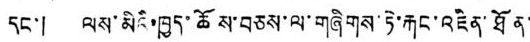དང་། ལས་མིའི་ཁྱད་ཆོས་བཅས་ལ་གཞིགས་ཏེ་རྐང་འཛིན་ཐོན་
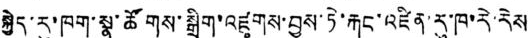སྐྱེད་རུ་ཁག་སྣ་ཚོགས་སྒྲིག་འཛུགས་བྱས་ཏེ་རྐང་འཛིན་རུ་ཁ་རེ་རེས
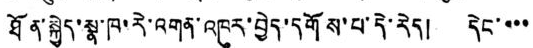ཐོན་སྐྱེད་སྣ་ཁ་རེ་འགན་འཁུར་བྱེད་དགོས་པ་དེ་རེད། དེང་་་་
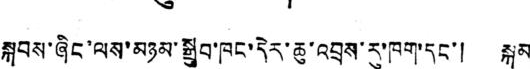སྐབས་ཞིང་ལས་མཉམ་སྒྲུབ་ཁང་དེར་ཆུ་འབྲས་རུ་ཁག་དང་། སྐམ
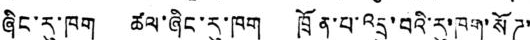ཞིང་རུ་ཁག ཚལ་ཞིང་རུ་ཁག ཁྲོན་པ་འདྲུ་བའི་རུ་ཁག་སོཊ་
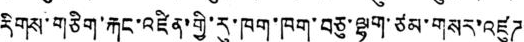རིགས་གཅིག་རྐང་འཛིན་གྱི་རུ་ཁག་ཁག་ཁག་བཅུ་ལྷག་ཙམ་གསར་འཛུཊ་
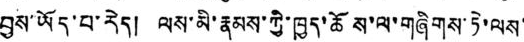བྱས་ཡོད་པ་རེད། ལས་མི་རྣམས་ཀྱི་ཁྱད་ཆོས་ལ་གཞིགས་ཏེ་ལས་
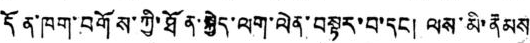དོན་ཁག་བགོས་ཀྱི་ཐོན་སྐྱེད་ལག་ལེན་བསྟར་བ་དང། ལས་མི་རྣམས
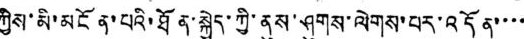ཀྱིས་མི་མངོན་པའི་ཐོན་སྐྱེད་ཀྱི་ནུས་ཤུགས་ལེགས་པར་འདོན་་་་
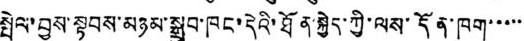སྤེལ་བྱས་སྟབས་མཉམ་སྒྲུབ་ཁང་དེའི་ཐོན་སྐྱེད་ཀྱི་ལས་དོན་ཁག་་་་་་
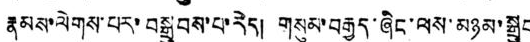རྣམས་ལེགས་པར་བསྒྲུབས་པ་རེད། གསུམ་བརྒྱད་ཞིང་ལས་མཉམ་སྒྲུབ
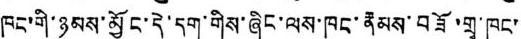ཁང་གི་ཉམས་མྱོང་དེ་དག་གིས་ཞིང་ལས་ཁང་རྣམས་བཟོ་གྲྭ་ཁང་་
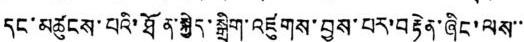དང་མཚུངས་པའི་ཐོན་སྐྱེད་སྒྲིག་འཛུགས་བྱས་པར་བརྟེན་ཞིང་ལས་་་
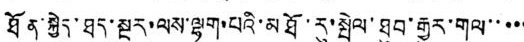ཐོན་སྐྱེད་ཐད་སྔར་ལས་ལྷག་པའི་མཐོ་རུ་སྤེལ་ཐུབ་རྒྱུར་གལ་་་་་
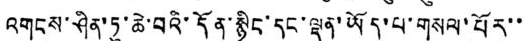འགངས་ཤིན་ཏུ་ཆེ་བའི་དོན་སྙིང་དང་ལྡན་ཡོད་པ་གསལ་པོར་་་
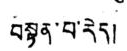བསྟན་པ་རེད།
